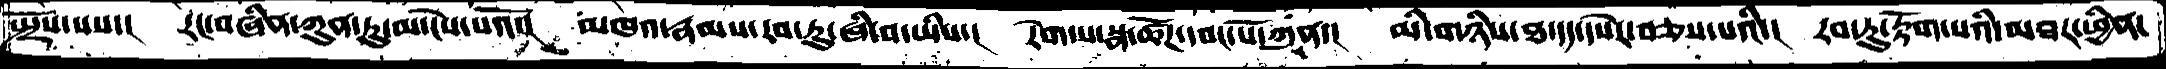སྤྲོས་པས་།   རང་བཞིན་ཀུན་ཏུ་མ་ངེས་པའོ་།   མཁས་རྣམས་རབ་ཏུ་ཞི་བ་ཡིས་།   རེག་པ་སྣ་ཚོཌ་དབང་པོ་ཀུན་།  མི་གཉིས་ཐ་དད་དཔེར་བཅས་པའི་།  རབ་ཏུ་རྟོག་པའི་མཐར་ཕྱིན་
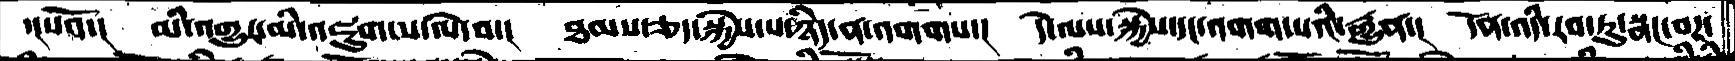་།པའོ་།  མི་འགྱུར་མི་འཇུག་ས་ལེ་བ་།   ཐམས་ཅད་སྐྱེས་པ་ཉིད་ན་འགགས་།  དེ་ལས་སྐྱེས་དང་འགག་པའི་རྒྱུན་།   དོན་འདིར་རབ་ཏུ་སྣང་བར་
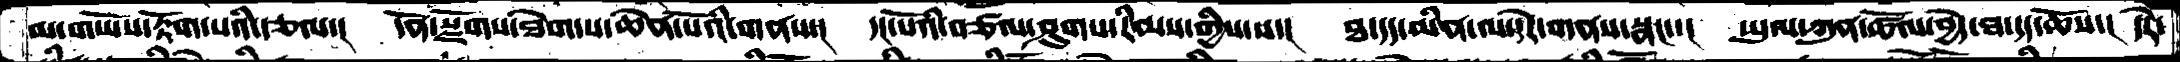མ་གཡོས་རྟོག་པའི་རྩལ་།  དོན་སྫོགས་ཐེག་ས་ཆེན་པོའི་གནས་།  དང་པོའི་བཙལ་ཤུགས་རིམས་གྱིས་ས་།  ཐ་དད་མིན་ལ་དེར་གནས་སྣང་།  ཡུལ་ཀུན་ཚོལ་བྱེད་ཐ་དད་ཆོས་།  དེར་
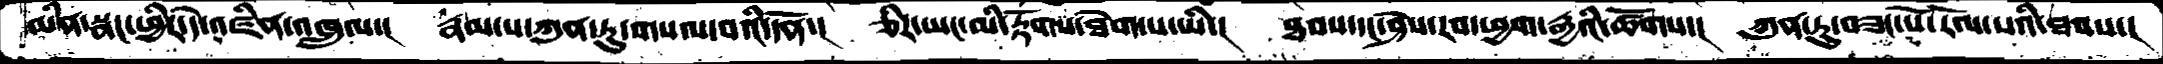མིན་སྣང་ཕྱིར་དེ་འཛིན་འཁྲུལ་།  རྣམ་པ་ཀུན་ཏུ་གསལ་བའི་དོན་།  ཅིར་ཡང་མི་རྟོགས་ཐེག་པ་ཡི་།  ཐབས་དང་ཤེས་རབཕྱག་རྒྱའི་ཚོགས་།  ཀུན་ཏུ་བཟང་པོ་རོལ་པའི་ཐབས་།
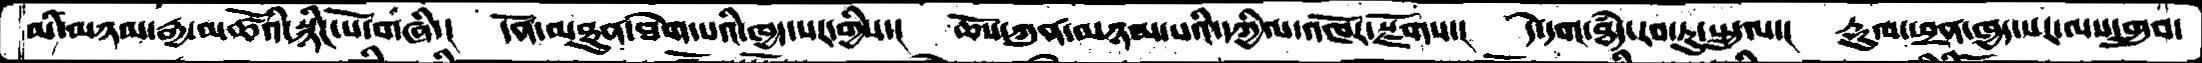མི་མཉམ་རྒྱ་མཚོའི་སྙིང་པོ་གཞི་།  དོན་མཐུན་ཐེག་པའི་ཁྱད་པར་གྱིས་།  ཆོས་ཀུན་མཉམ་པའི་དཀྱིལ་འཁོར་སྫོགས་།  དེ་དག་ཐདཾ་རབ་ཏུ་སྤྲུལ་།  རྡུལ་ཕྲན་ཁྱད་པར་ལས་གྲུབ་
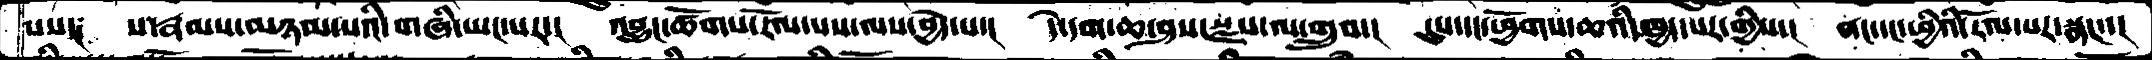པས་།   ས་རྣམས་མཉམ་པའི་གཞི་ཡང་པར་།   འབྱུང་ཚོགས་རོལ་པས་ལས་བྱེད་པ་།   དེ་དག་ཆ་ཤས་སྫས་ལ་གྲུབ་།   དུས་དང་ཕྱོགས་ཆའི་ཁྱད་པར་གྱིས་།  ནང་དང་ཕྱིའི་རོལ་པར་སྣང་་།
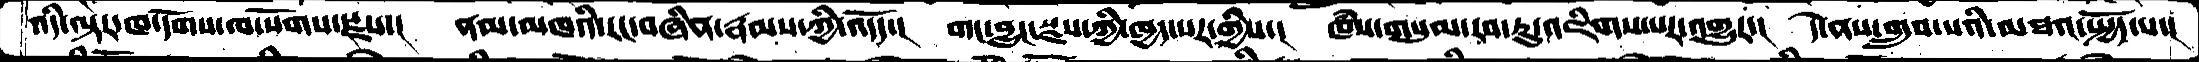འདི་ལྟར་ཁ་དོག་ལ་སོགས་སྫས་།  ནམ་མཁའི་རང་བཞིན་རྣམས་ཀྱི་འདོད་།  གང་བྱུང་སྫས་ཀྱི་ཁྱད་པར་གྱིས་།  ཁཾས་གསུཾ་རབ་ཏུ་འཇིགས་པར་འགྱུར་།  དེ་ནས་གྲུབ་པའི་མཐའ་སྤྱོད་པ་།
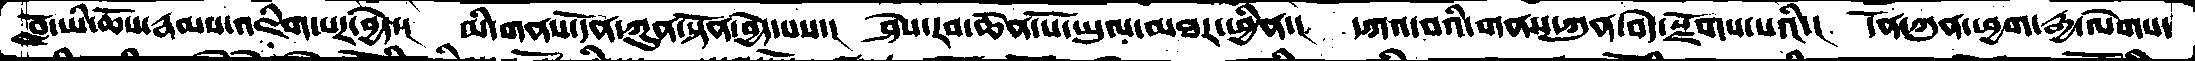བློ་ཡི་ཆོས་རྣམས་འཇིག་པར་བྱེད་།  མི་གནས་དོན་ཀུན་སྟོན་བྱེད་པས་།  ཤེས་རབ་ཆེན་པོ་ཡུལ་མཐར་ཕྱིན་།  དཀའ་བའི་གནས་ཀུན་བདེ་སྫོགས་པའི་།  དོན་ཀུན་ཕྱག་རྒྱ་ལེགས་
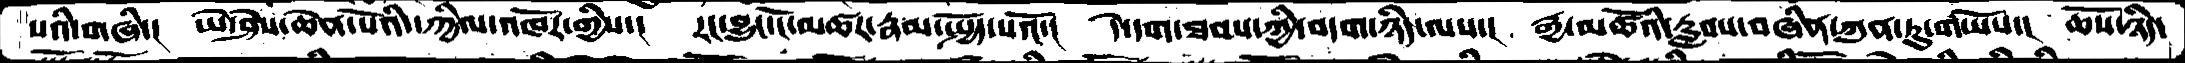པའི་གཞི་།  ཡེ་ཤེས་ཆེན་པོའི་དཀྱིལ་འཁོར་གྱིས་།   རང་བྱུང་ངོ་མཚར་རྣམ་སྤྱོད་པའོ་།  དེ་དག་ཐབས་ཀྱི་བདག་ཉིད་ལས་།  རྒྱ་མཚོའི་རླབས་བཞིན་ཀུན་ཏུ་གཡོས་།  ཆོས་ཉིད་
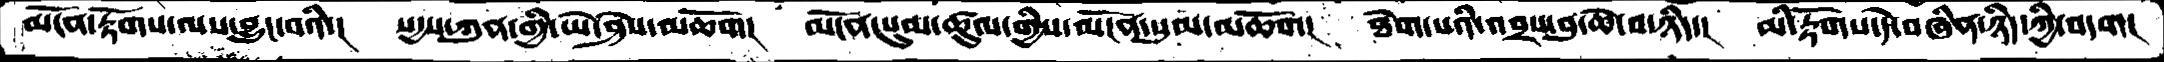མངོན་རྟོགས་ལས་བྱུང་བའི་།   སདྱས་ཀུན་གྱི་ཡེ་ཤེས་མཆོག།   མངོན་སུམ་ཚུལ་གྱིས་མངོན་སུམ་མཆོག།  ཐེག་པའི་འབྲས་བུ་ཆེ་བ་ཉིད་།  མི་རྟོགས་དེ་བཞིན་ཉིད་ཀྱི་བདག།
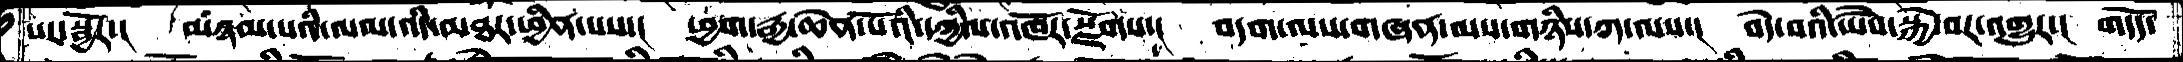པར་སྦྱོར་།   མཉམ་པའི་ལམ་འདི་མཐར་ཕྱིན་པས་།   ཕྱག་རྒྱ་ཆེན་པོའི་དཀྱིལ་འཁོར་སྫོགས་།   བདག་ལས་གཞན་ལས་གཉིས་ཀ་ལས་།  བདེ་བའི་ཡཻས་སྐྱེ་བར་འགྱུར་།  གདོད་
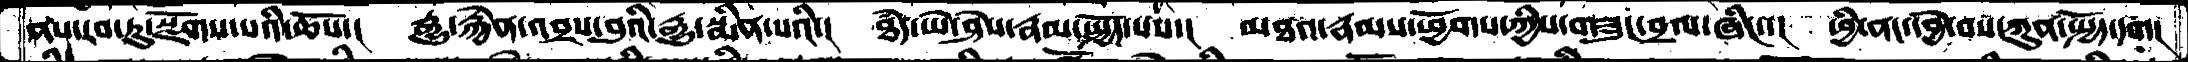ནས་རབ་ཏུ་སྫོགས་པའི་ཆོས་།  རྒྱུ་རྐྱེན་འབྲས་བུའི་རྒྱུ་སྨིན་པའི་།  ཐཾད་ཡེ་ཤེས་རྣམ་སྤྱོད་པས་།   མཐའ་རྣམས་ཕྱོགས་ཀྱིས་གཟུང་བྲལ་ཞིང་།  ཕྱི་ནང་དབྱེ་བས་ཀུན་སྤྱོད་དག།
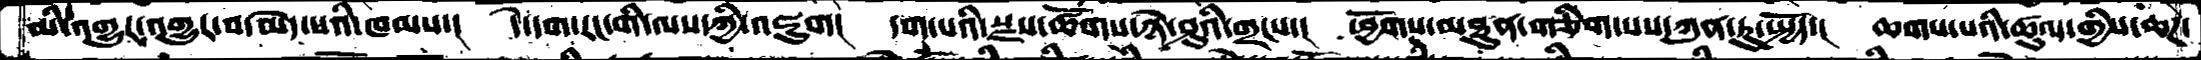མི་འགྱུར་འགྱུར་བ་མེད་པའི་ཁམས་།  དེ་དག་རང་གི་ལས་ཀྱི་འཇུག།  དག་པའི་སྫས་ཚོགས་ཉེ་ཤུའི་གྲངས་།  ཕྱོགས་མཐུན་གཅིག་པས་ཀུན་ཏུ་སྤྱོད་།  ཆགས་པའི་ཚུལ་གྱིས་ཆཌ་
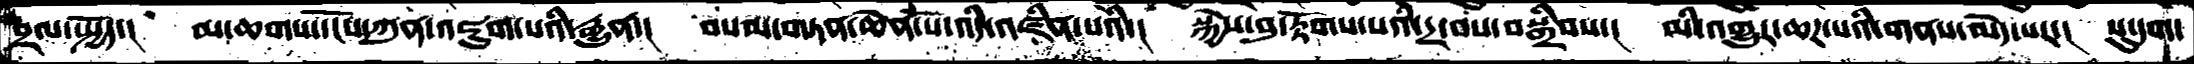བྲལ་སྤྱོད་།  མ་ཆགས་དངོས་ཀུན་འཇུག་པའི་རྒྱུན་།  བསམ་གཏན་ཆེན་པོ་འདི་འཛིན་པའི་།  སྐྱེས་བུ་རྟོགས་པའི་དྲ་བས་བསྒྲིབས་།  མི་འགྱུར་ཆཌ་པའི་གནས་མེད་པར་།  སུ་དག་
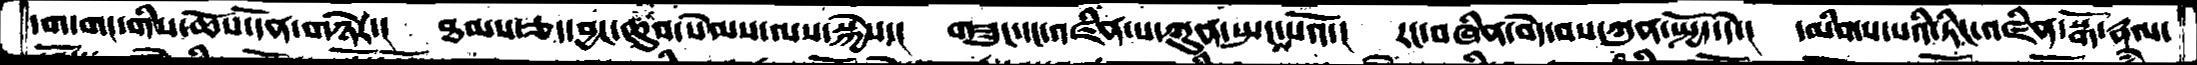དག་གང་གིས་ཆོས་དོན་གཉེར་།  ཐམས་ཅད་བྱང་ཆུབ་སེམས་ལས་སྐྱེས་།  གཟུང་དང་འཛིན་པ་ཀུན་སྤངས་པའོ་།  རང་བཞིན་བདེ་བས་ཀུན་སྤྱོད་དེ་།  དམིགས་པའི་ཏིང་འཛིན་སྒོ་རྣལ
